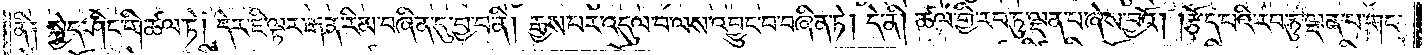ནི༑ སྐྱེད་ཤིང་གི་ཚལ་ཏེ། དེར་ཇི་ལྟར་རྒན་རིམ་བཞིན་དུ་བྱ་བ་ནི། རྒྱས་པར་འདུལ་བ་ལས་འབྱུང་བ་བཞིན་ཏེ། དེ་ནི། ཚལ་གྱི་རབ་ཏུ་ལྡན་པ་ཞེས་བྱའོ། །རྩོད་པའི་རབ་ཏུ་ལྡན་པ་གང་
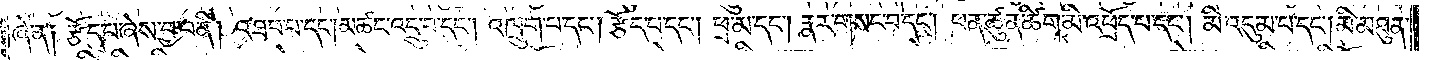ཞེ་ན༑ རྩོད་པ་ཞེས་བྱ་བ་ནི། འཐབ་པ་དང༌། མཚང་འདྲུ་བ་དང༌། འཁྲུག་པ་དང༌། རྩོད་པ་དང༌། ཕྲ་མ་དང༌། རྣར་གསང་བ་དང༌། ཕན་ཚུན་ཚིག་མི་འཕྲོད་པ་དང༌། མི་འདུམ་པ་དང༌། མི་མཐུན་
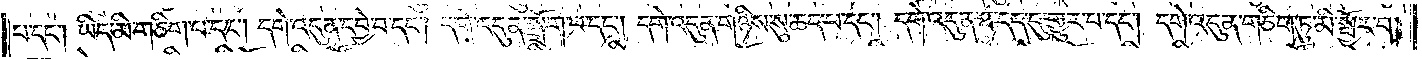པ་དང༌། ཡིད་མི་གཅིག་པ་དང༌། དགེ་འདུན་དབྱེ་བ་དང༌། དགེ་འདུན་སྒྲོག་པ་དང༌། དགེ་འདུན་གཉིས་སུ་ཆད་པ་དང༌། དགེ་འདུན་ཐ་དད་དུ་གྱུར་པ་དང༌། དགེ་འདུན་གཅིག་ཏུ་མི་སྦྱོར་བ་
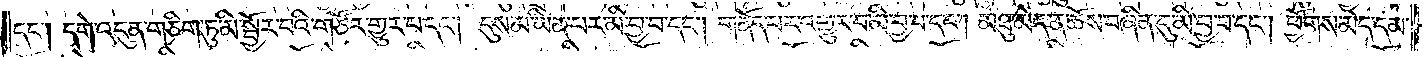དང༌། དགེ་འདུན་གཅིག་ཏུ་མི་སྦྱོར་བའི་གཙོར་གྱུར་པ་དང༌། དུས་མ་ཡིན་པར་མི་བྱ་བ་དང༌། གནོད་པར་འགྱུར་བ་མི་བྱ་བ་དང༌། མཐུ་མེད་ན་ཆོས་བཞིན་དུ་མི་བྱ་བ་དང༌། ཕྱོགས་མེད་དམ་
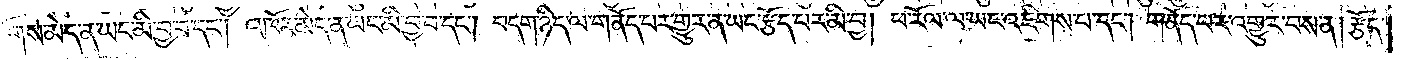གྲོགས་མེད་ན་ཡང་མི་བྱ་བ་དང༌། འཁོར་མེད་ན་ཡང་མི་བྱ་བ་དང༌། བདག་ཉིད་ལ་གནོད་པར་གྱུར་ན་ཡང་རྩོད་པར་མི་བྱ། ཕ་རོལ་ལ་ཡང་འཇིགས་པ་དང༌། གནོད་པར་འགྱུར་བས་ན། རྩོད་
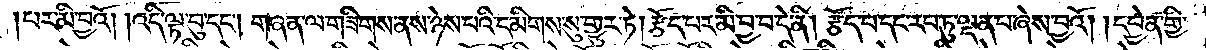པར་མི་བྱའོ། །འདི་ལྟ་བུ་དང༌། གཞན་ལ་གཟིགས་ནས་ཉེས་པའི་དམིགས་སུ་གྱུར་ཏེ། རྩོད་པར་མི་བྱ་བ་དེ་ནི། རྩོད་པ་དང་རབ་ཏུ་ལྡན་པ་ཞེས་བྱའོ། །དབྱེན་གྱི་
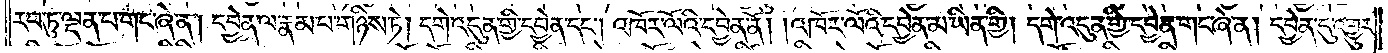རབ་ཏུ་ལྡན་པ་གང་ཞེ་ན། དབྱེན་ལ་རྣམ་པ་གཉིས་ཏེ། དགེ་འདུན་གྱི་དབྱེན་དང༌། འཁོར་ལོའི་དབྱེན་ནོ། །འཁོར་ལོའི་དབྱེན་མ་ཡིན་གྱི། དགེ་འདུན་གྱི་དབྱེན་གང་ཞེ་ན། དབྱེན་དུ་འགྱུར་
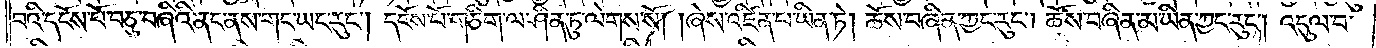བའི་དངོས་པོ་བཅུ་བཞིའི་ནང་ནས་གང་ཡང་རུང༌། དངོས་པོ་གཅིག་ལ་ཤིན་ཏུ་ལེགས་སོ། །ཞེས་འཛིན་པ་ཡིན་ཏེ། ཆོས་བཞིན་ཀྱང་རུང༌། ཆོས་བཞིན་མ་ཡིན་ཀྱང་རུང༌། འདུལ་བ་
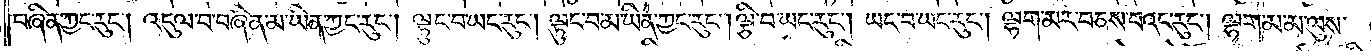བཞིན་ཀྱང་རུང༌། འདུལ་བ་བཞིན་མ་ཡིན་ཀྱང་རུང༌། ལྟུང་བ་ཡང་རུང༌། ལྟུང་བ་མ་ཡིན་ཀྱང་རུང༌། ལྕི་བ་ཡང་རུང༌། ཡང་བ་ཡང་རུང༌། ལྷག་མར་བཅས་པའང་རུང༌། ལྷག་མ་མ་ལུས་
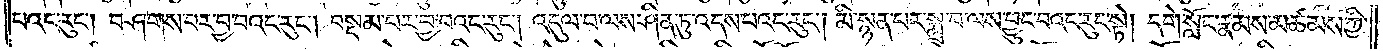པའང་རུང༌། བཤགས་པར་བྱ་བའང་རུང༌། བསྡམ་པར་བྱ་བའང་རུང༌། འདུལ་བ་ལས་ཤིན་ཏུ་འདས་པའང་རུང༌། མི་སྙན་པར་སྨྲ་བ་ལས་བྱུང་བའང་རུང་སྟེ། དགེ་སློང་རྣམས་མཚམས་ཀྱི་
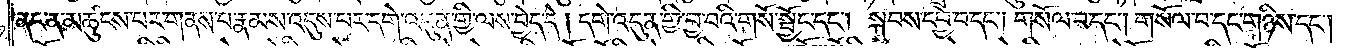ནང་ན་མཚུངས་པར་གནས་པ་རྣམས་འདུས་པར་དགེ་འདུན་གྱི་ལས་བྱེད་དེ། དགེ་འདུན་གྱི་བྱ་བའི་གསོ་སྦྱོང་དང༌། སྐབས་དབྱེ་བ་དང༌། གསོལ་བ་དང༌། གསོལ་བ་དང་གཉིས་དང༌།
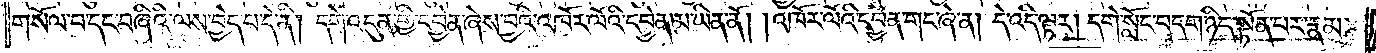གསོལ་བ་དང་བཞིའི་ལས་བྱེད་པ་དེ་ནི། དགེ་འདུན་གྱི་དབྱེན་ཞེས་བྱའི་འཁོར་ལོའི་དབྱེན་མ་ཡིན་ནོ། །འཁོར་ལོའི་དབྱེན་གང་ཞེ་ན། དེ་འདི་ལྟར། དགེ་སློང་བདག་ཉིད་སྟོན་པར་རྣམ་
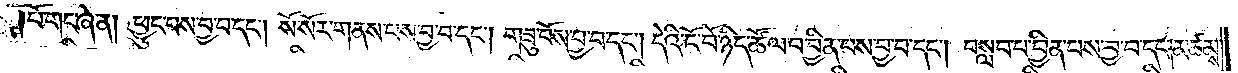།པོ་གང་ཞེ་ན། ཕྱུང་བས་བྱ་བ་དང༌། སོ་སོར་གནས་པས་བྱ་བ་དང༌། གཟུ་བོས་བྱ་བ་དང༌། དེའི་ངོ་བོ་ཉིད་ཚོལ་བ་བྱིན་པས་བྱ་བ་དང༌། བསླབ་པ་བྱིན་པས་བྱ་བ་དང༌། མཚམས་
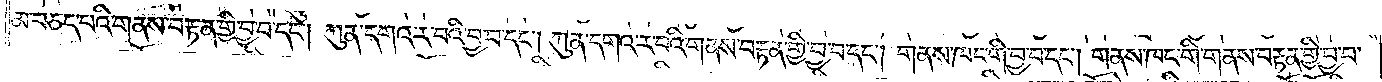མ་བཅད་པའི་གནས་བརྟན་གྱི་བྱ་བ་དང༌། ཀུན་དགའ་ར་བའི་བྱ་བ་དང༌། ཀུན་དགའ་ར་བའི་གནས་བརྟན་གྱི་བྱ་བ་དང༌། གནས་ཁང་གི་བྱ་བ་དང༌། གནས་ཁང་གི་གནས་བརྟན་གྱི་བྱ་བ་
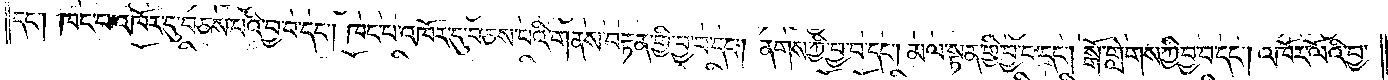དང༌། ཁང་པ་འཁོར་དུ་བཅས་པའི་བྱ་བ་དང༌། ཁང་པ་འཁོར་དུ་བཅས་པའི་གནས་བརྟན་གྱི་བྱ་བ་དང༌། ནགས་ཀྱི་བྱ་བ་དང༌། མལ་སྟན་གྱི་བྱ་བ་དང༌། སྒོ་གླེགས་ཀྱི་བྱ་བ་དང༌། འཁོར་ལོའི་བྱ་
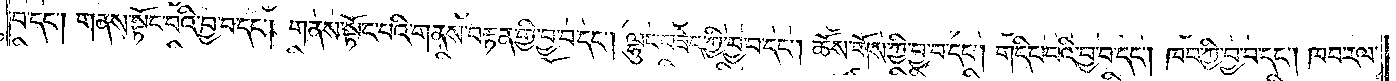བ་དང༌། གནས་སྟོང་པའི་བྱ་བ་དང༌། གནས་སྟོང་པའི་གནས་བརྟན་གྱི་བྱ་བ་དང༌། ལྷུང་བཟེད་ཀྱི་བྱ་བ་དང༌། ཆོས་གོས་ཀྱི་བྱ་བ་དང༌། གདིང་བའི་བྱ་བ་དང༌། ཁབ་ཀྱི་བྱ་བ་དང༌། ཁབ་རལ་
